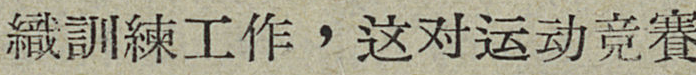織訓練工作，这对运动竞賽
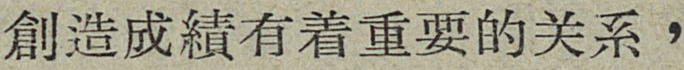創造成績有着重要的关系，
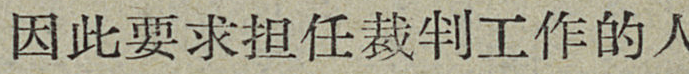因此要求担任裁判工作的人
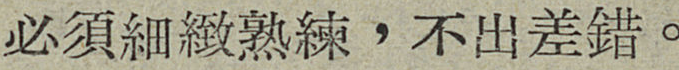必須細緻熟練，不出差錯。
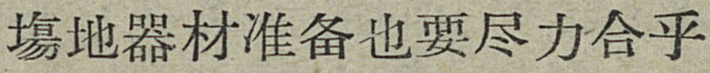塲地器材准备也要尽力合乎
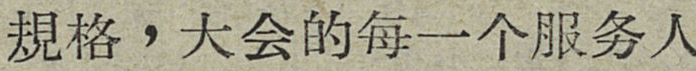規格，大会的每一个服务人
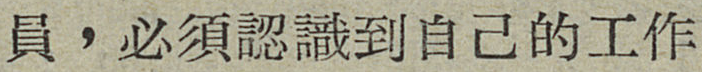員，必須認識到自己的工作
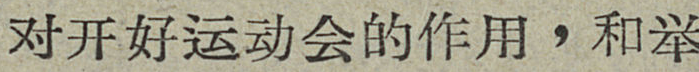对开好运动会的作用，和举
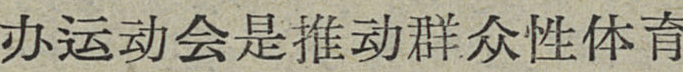办运动会是推动群众性体育
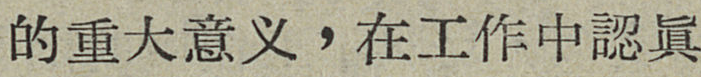的重大意义，在工作中認眞
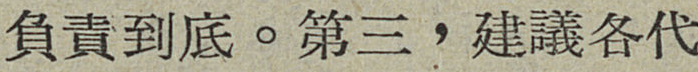負責到底。第三，建議各代
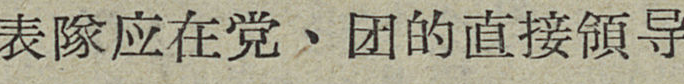表隊应在党、团的直接領导
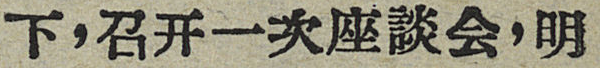下，召开一次座談会，明
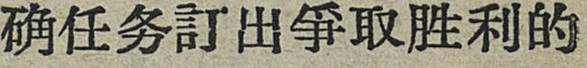确任务訂出爭取胜利的
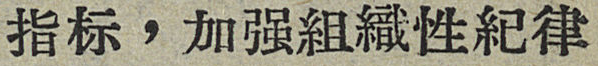指标，加强組織性紀律
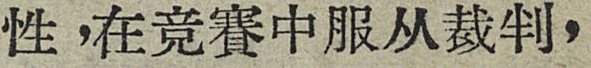性，在竞賽中服从裁判，
